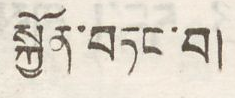སྐྱོན་བཏང་བ།
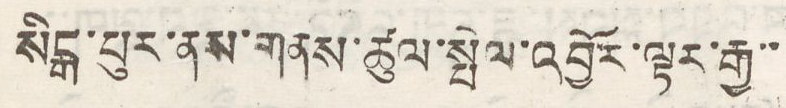སངྒ་པུར་ནས་གནས་ཚུལ་སྤེལ་འབྱོར་ལྟར་རྒྱ་་
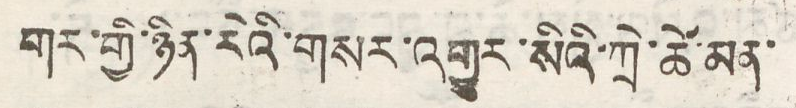གར་གྱི་ཉིན་རེའི་གསར་འགྱུར་སིའི་ཀྲི་ཚེ་མན་
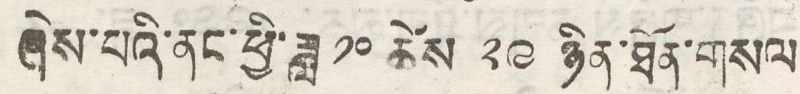ཞེས་པའི་ནང་ཕྱི་ཟླ ༡༠ ཚེས་ ༢༩ ཉིན་ཐོག་གསལ
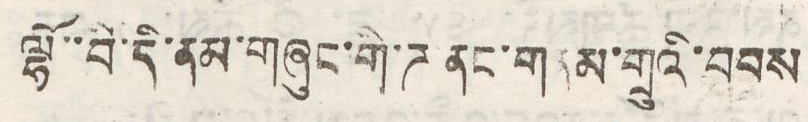ལྷོ་་བི་དི་ནམ་གཞུང་གི་ཌ ནང་གནམ་གྲུའི་བབས
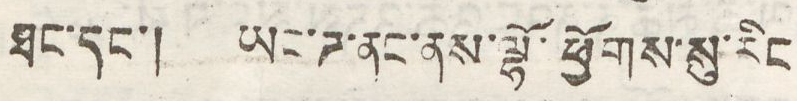ཐང་དང་། ཡང་ཌ་ནང་ནས་ལྷོ་ཕྱོགས་སུ་རིང
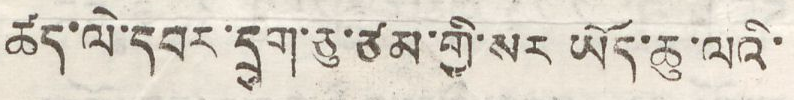ཚད་ལེ་དབར་དྲུག་ཅུ་ཙམ་གྱི་སར ཡོད་ཆུ་ལའི་
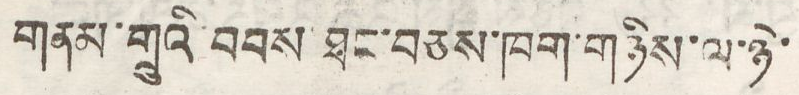གནམ་གྲུའི་བབས་ཐང་བཅས་ཁག་གཉིས་ལ་ཉེ་
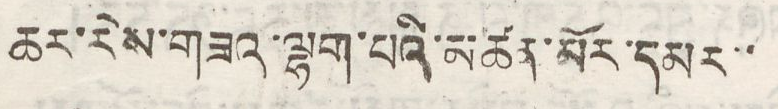ཆར་རེས་གཟའ་ལྷག་པའི་མཚན་མོར་དམར་་
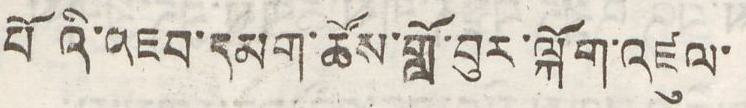པོའི་འཇབ་དམག་ཚོས་གློ་བུར་ལྐོག་འཛུལ་
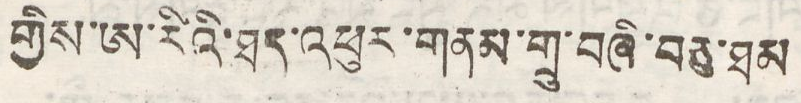གྱིས་ཨ་རིའི་ཐད་འཕུར་གནས་གྲུ་བཞི་བཅུ་ཐམ
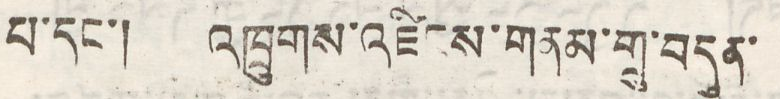པ་དང་། འཁྲུགས་འཛིངས་གནས་གྲུ་བདུན་
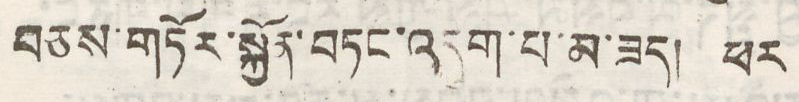བཅས་གཏོར་སྐྱོན་བཏང་འདུག་པ་མ་ཟད། ཕར
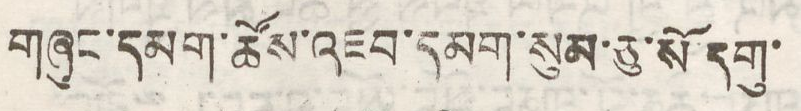གཞུང་དམག་ཚོས་འཇབ་དམག་སུམ་ཅུ་སོ་དགུ་
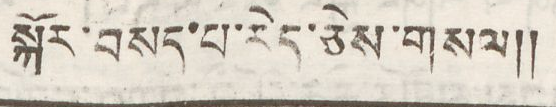སྐོར་བསད་པ་རེད་ཅེས་གསལ།།
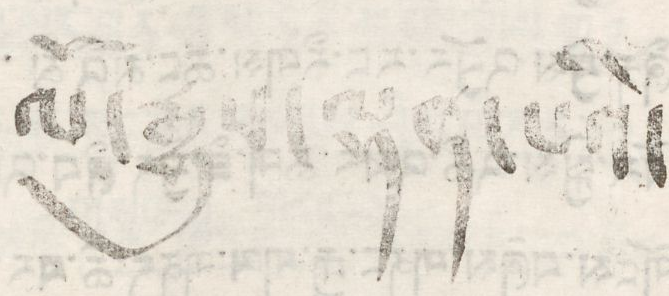ལོ་རྒྱུས་ལྡན་པའི་
